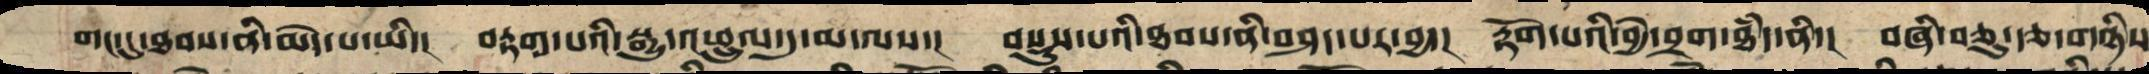གང་དུ་ཐབས་ནི་མེད་པ་ཡི་། བརྟག་པའི་སྒྱུ་འཕྲུལ་དུ་མ་ལས་། བསྡུས་པའི་ཐབས་ནི་བཤད་པར་བྱ་། རྟོག་པའི་བྱེ་བྲག་ཐཾད་ནི་། བཞི་བཅུ་རྩ་གཉིས
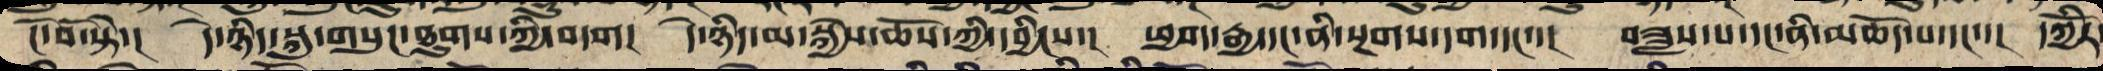ངོ་བོ་སྟེ། དེ་ཉིད་སྐུ་གསུང་ཐུགས་ཀྱི་བདག། དེ་ཉིད་མ་སྐྱེས་ཆོས་ཀྱི་དབྱིངས་། ཕྱག་རྒྱ་དང་ནི་སྔགས་དག་དང་་། བཟླས་པ་དང་ནི་མཆོད་པ་དང་་། དཀྱིརོ་
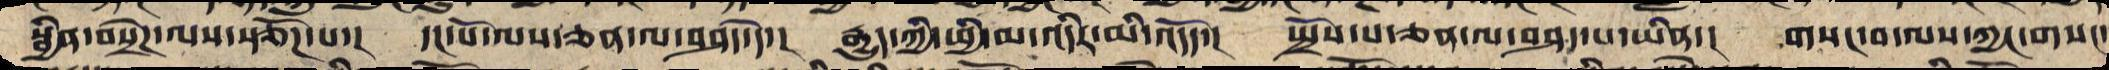སྦྱིན་བསྲེཌ་ལས་སྩོཌ་པ་། དང་པོ་ལས་ཅན་ལ་བཤད་དེ་། རྒྱུད་ཀྱི་ཕྱི་མ་འདིར་མི་འདོད་། སྤྲོས་པ་ཅན་ལ་བཤད་པ་ཡིན་། གསང་བ་ལས་ཀྱང་གསང་
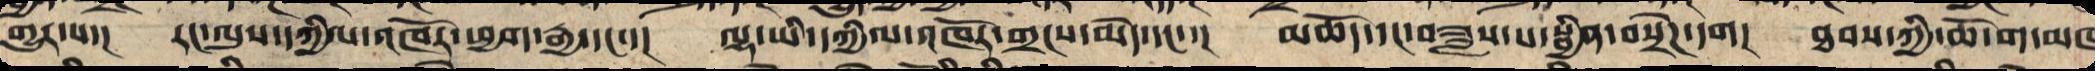གྱུར་པ་། རང་ལུས་དཀྱིལ་འཁོར་ཕྱག་རྒྱ་དང་་། ལྷ་ཡི་དཀྱིལ་འཁོར་གྲངས་མེད་དང་་། མཆོད་དང་བཟླས་པ་སྦྱིན་བསྲེཌ་དག། ཐབས་ཀྱི་ཆོ་ག་མཁ
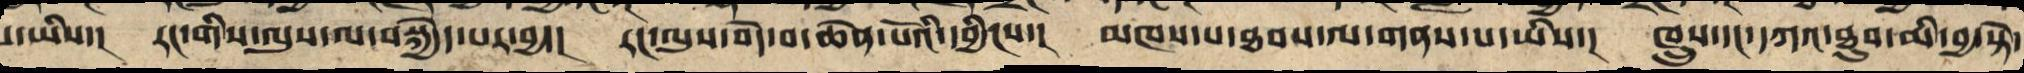པ་ཡིས་། རང་གིས་ལུས་ལ་བསྐྱེད་པར་བྱ་། རང་ལུས་བདེ་བ་ཆེན་པོའི་དབྱིངས་། མཁས་པ་ཐབས་ལ་གནས་པ་ཡིས་། ཁྲུས་དང་དཀའ་ཐུབ་མི་བྱ་སྟེ་
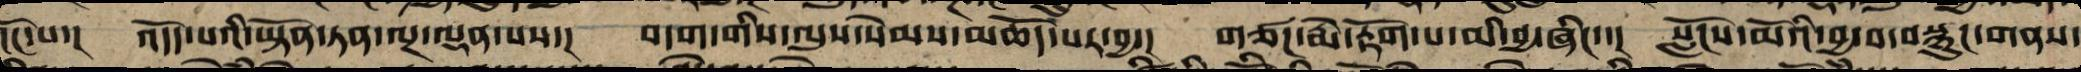འོང་བ་། འདོད་པའི་ཡྟོན་ལྔར་ལྡན་པས་། བདག་གི་ལུས་སེམས་མཆོད་པར་བྱ་། གཙང་སྨེ་རྟོག་པ་མི་བྱ་ཞིང་་། སློངས་མོའི་བྱ་བ་བསྙུང་གནས་
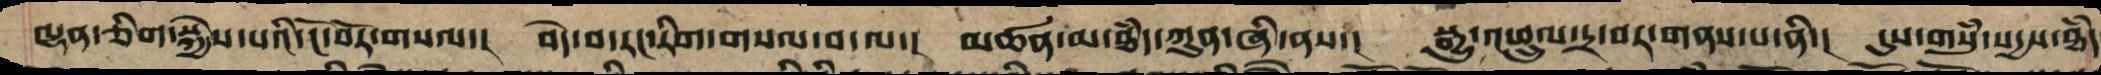ལྷན་ཅིག་སྐྱེས་པའི་ངོ་བོ་གསལ་། བདེ་བ་རང་གི་གསལ་བ་ལ་། མཚན་མ་ཐཾད་ཀུན་ཞི་ནས་། སྒྱུ་འཕྲུལ་དྲ་བར་གནས་པ་ནི་། དུས་གསུཾ་སདྱས་ཐཾད་
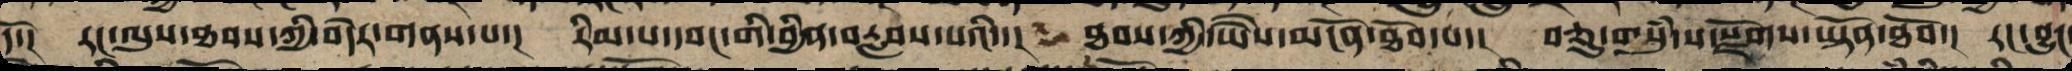དོ་། རང་ལུས་ཐབས་ཀྱི་བདེར་གནས་པ་། རིམ་པ་དབང་གིས་བྱིན་བརླབས་པའི་། ཐབས་ཀྱི་ཡཻས་མངོན་ཐོབ་པ་། བཅུ་གསུཾ་ས་སྫོགས་ཡྟོན་ཐོབ་། རང་བྱུང
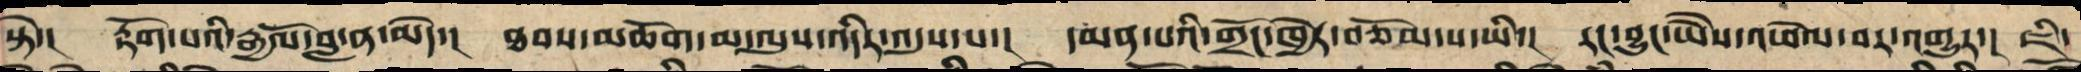སྟེ་། རྟོགས་པའི་རྒྱལོ་བླ་ན་མེད་། ཐབས་མཆོག་མ་ལུས་འདིར་འདུས་པ་། དམན་པའི་གྲོང་ཁྱེར་བཅོམ་པ་ཡིས་། རང་བྱུང་ཡཻས་འཕེལ་བར་འགྱུར་། ཇི་
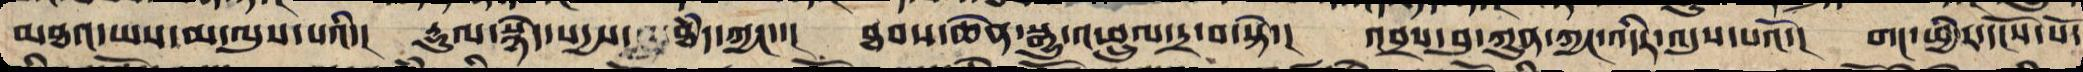མཐའ་ཡས་མ་ལུས་པའི་། རྡུལ་སྙེད་སདྱས་ཐཾད་ཀྱང་་། ཐབས་ཆེན་སྒྱུ་འཕྲུལ་དྲ་བ་སྟེ་། འབྲས་བུ་ཀུན་ཀྱང་འདིར་འདུས་པའོ་། གང་ཕྱིར་དངོས་པོ་
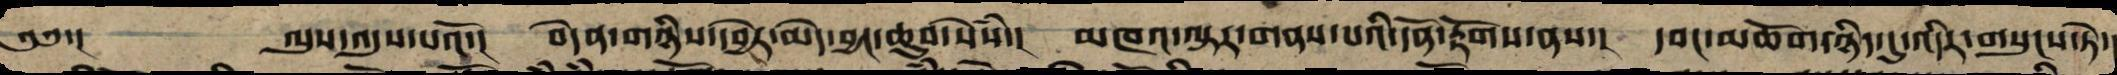༄༅་།          ལུས་འདུས་པའོ་། བདེན་གཉིས་དབྱེར་མེད་བྱང་ཆུབ་སེཾས། མཁའ་ལྟར་གནས་པའི་དོན་རྟོགས་ནས་། དབང་མཆོག་ཉིད་དུ་འདི་གསུངས་ཏེ་
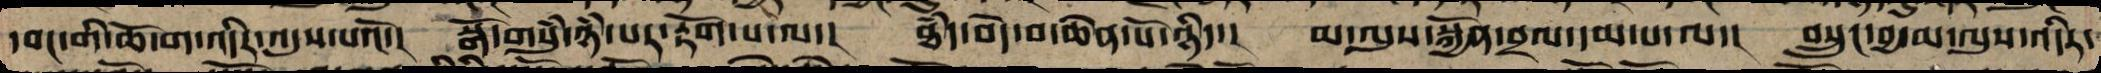དབང་གི་ཆོ་ག་འདིར་འདུས་པའོ་། སྒོ་གསུཾ་ཉཾ་པར་རྟོག་པ་ལ་། ཐཾད་བདེ་བ་ཆེན་པོ་ཉིད་། མ་ལུས་སྐྱོན་བྲལ་དམ་པ་ལ་། བསྲུང་བྱ་མ་ལུས་འདིར་
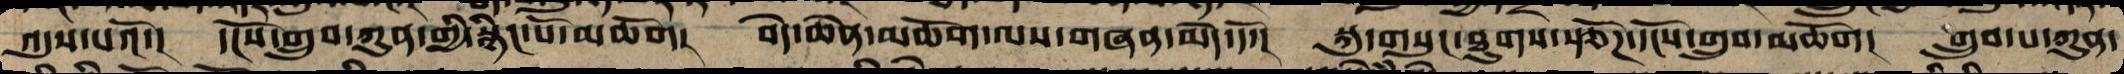འདུས་པའོ་། དངོས་གྲུབ་ཀུན་གྱི་སྙིང་པོ་མཆོག། བདེ་ཆེན་མཆོག་ལས་གཞན་མེད་དོ་། སྐུ་གསུང་ཐུགས་སྩོཌ་དངོས་གྲུབ་མཆོག། གྲུབ་པ་ཀུན་
